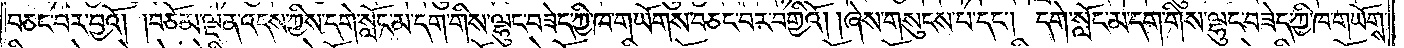བཅང་བར་བྱའོ། །བཅོམ་ལྡན་འདས་ཀྱིས་དགེ་སློང་མ་དག་གིས་ལྷུང་བཟེད་ཀྱི་ཁ་གཡོགས་བཅང་བར་བགྱིའོ། །ཞེས་གསུངས་པ་དང༌། དགེ་སློང་མ་དག་གིས་ལྷུང་བཟེད་ཀྱི་ཁ་གཡོགས་
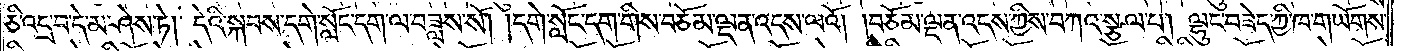ཅི་འདྲ་བ་དེ་མ་ཤེས་ཏེ། དེའི་སྐབས་དགེ་སློང་དག་ལ་བཟླས་སོ། །དགེ་སློང་དག་གིས་བཅོམ་ལྡན་འདས་ལའོ། །བཅོམ་ལྡན་འདས་ཀྱིས་བཀའ་སྩལ་པ། ལྷུང་བཟེད་ཀྱི་ཁ་གཡོགས་
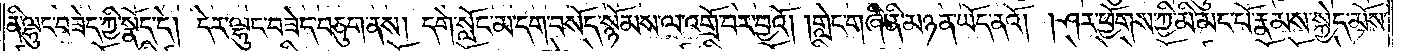ནི་ལྷུང་བཟེད་ཀྱི་སྣོད་དེ། དེར་ལྷུང་བཟེད་བཅུག་ནས། དགེ་སློང་མ་དག་བསོད་སྙོམས་ལ་འགྲོ་བར་བྱའོ། །གླེང་གཞི་ནི་མཉན་ཡོད་ནའོ། །ཤར་ཕྱོགས་ཀྱི་མི་མང་པོ་རྣམས་སྐྱེད་མོས་
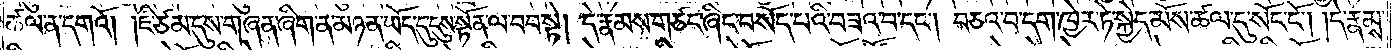ཚལ་ན་དགའོ། །ཇི་ཙམ་དུས་གཞན་ཞིག་ན་མཉན་ཡོད་དུ་དུས་སྟོན་ལ་བབ་སྟེ། དེ་རྣམས་གཙང་ཞིང་བསོད་པའི་བཟའ་བ་དང༌། བཅའ་བ་དག་ཁྱེར་ཏེ་སྐྱེད་མོས་ཚལ་དུ་སོང་ངོ༌། །དེ་རྣམས་
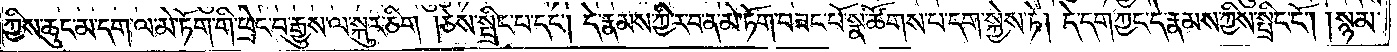ཀྱིས་ཆུང་མ་དག་ལ་མེ་ཏོག་གི་ཕྲེང་བ་རྒྱུས་ལ་སྐུར་ཅིག །ཅེས་སྤྲིང་པ་དང༌། དེ་རྣམས་ཀྱི་ར་བ་ན་མེ་ཏོག་བཟང་པོ་སྣ་ཚོགས་པ་དག་སྐྱེས་ཏེ། དེ་དག་ཀྱང་དེ་རྣམས་ཀྱིས་སྤྲིང་ངོ༌། །སྙམ་
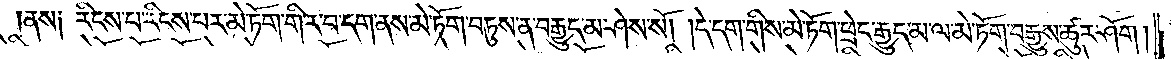ནས། རིངས་པ་རིངས་པར་མེ་ཏོག་གི་ར་བ་དག་ནས་མེ་ཏོག་བཏུས་ན་བརྒྱུད་མ་ཤེས་སོ། །དེ་དག་གིས་མེ་ཏོག་ཕྲེང་རྒྱུད་མ་ལ་མེ་ཏོག་བརྒྱུས་ཚུར་ཤོག །
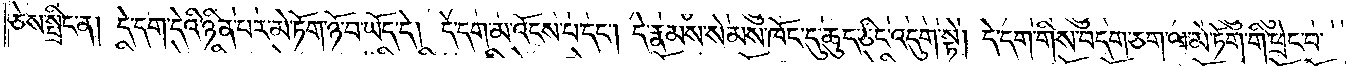ཅེས་སྤྲིང་ན། དེ་དག་དེའི་ཉིན་པར་མེ་ཏོག་ཉོ་བ་ཡོད་དེ། དེ་དག་མ་འོངས་པ་དང༌། དེ་རྣམས་སེམས་ཁོང་དུ་ཆུད་ཅིང་འདུག་སྟེ། དེ་དག་གིས་བདག་ཅག་ལ་མེ་ཏོག་གི་ཕྲེང་བ་
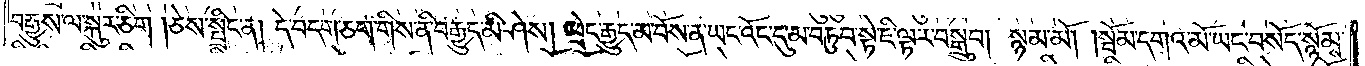བརྒྱུས་ལ་སྐུར་ཅིག །ཅེས་སྤྲིང་ན། དེ་བདག་ཅག་གིས་ནི་བརྒྱུད་མི་ཤེས། ཕྲེང་རྒྱུད་མ་བོས་ན་ཡང་འོང་དུ་མ་བཏུབ་སྟེ་ཇི་ལྟར་བསྒྲུབ། སྙམ་མོ། །སྦོམ་དགའ་མོ་ཡང་བསོད་སྙོམས་
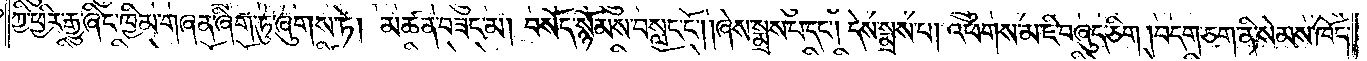ཀྱི་ཕྱིར་རྒྱུ་ཞིང་ཁྱིམ་གཞན་ཞིག་ཏུ་ཞུགས་ཏེ། མཚན་བཟང་མ། བསོད་སྙོམས་བསླང་ངོ༌། །ཞེས་སྨྲས་པ་དང༌། དེས་སྨྲས་པ། འཕགས་མ་ཇི་བཞུད་ཅིག །བདག་ཅག་ནི་སེམས་ཁོང་
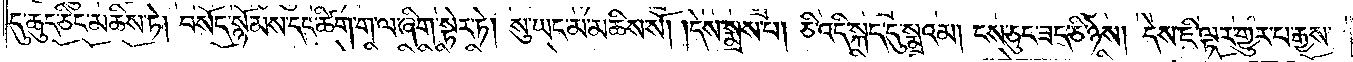དུ་ཆུད་ཅིང་མཆིས་ཏེ། བསོད་སྙོམས་དང་ཚིག་ག་ལ་ཞིག་སྟེར་ཏེ། སུ་ཡང་མ་མཆིས་སོ། །དེས་སྨྲས་པ། ཅི་འདི་སྐད་དུ་སྨྲའམ། ངས་ཅུང་ཟད་ཅི་ཉེས། དེས་ཇི་ལྟར་གྱུར་པ་རྒྱས་
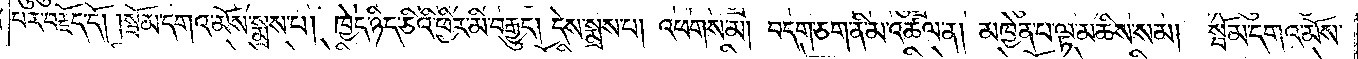པར་བརྗོད་དོ། །སྦོམ་དགའ་མོས་སྨྲས་པ། ཁྱེད་ཉིད་ཅིའི་ཕྱིར་མི་བརྒྱུད། དེས་སྨྲས་པ། འཕགས་མ། བདག་ཅག་ནི་མ་འཚལ་ན། མཁྱེན་པ་ལྟ་མཆིས་སམ། སྦོམ་དགའ་མོས་
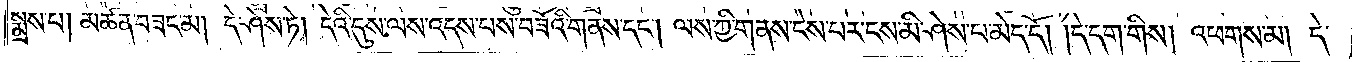སྨྲས་པ། མཚན་བཟང་མ། དེ་ཤེས་ཏེ། དེའི་དུས་ལས་འདས་པས་བཟོའི་གནས་དང༌། ལས་ཀྱི་གནས་ངེས་པར་ངས་མི་ཤེས་པ་མེད་དོ། །དེ་དག་གིས། འཕགས་མ། དེ་
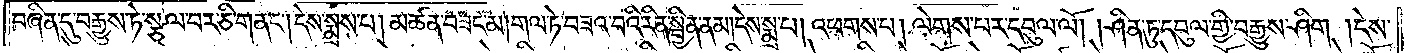བཞིན་དུ་བརྒྱུས་ཏེ་སྩལ་བར་ཅི་གནང༌། དེས་སྨྲས་པ། མཚན་བཟང་མ། གལ་ཏེ་བཟའ་བའི་རིན་སྦྱིན་ནམ། དེས་སྨྲ་པ། འཕགས་པ། ལེགས་པར་དབུལ་ལོ། །ཤིན་ཏུ་དབུལ་གྱི་བརྒྱུས་ཤིག །དེས་
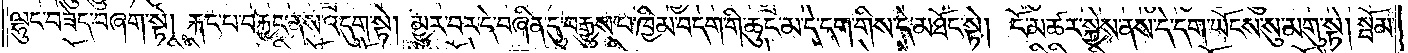ལྷུང་བཟེད་བཞག་སྟེ། རྐང་པ་བརྐྱང་ནས་འདུག་སྟེ། མྱུར་བར་དེ་བཞིན་དུ་བརྒྱུས་པ་ཁྱིམ་བདག་གི་ཆུང་མ་དེ་དག་གིས་དེ་མཐོང་སྟེ། ངོ་མཚར་སྐྱེས་ནས་དེ་དག་ཡོངས་སུ་མགུ་སྟེ། སྦོམ་
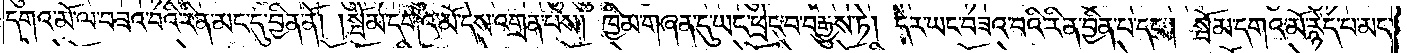དགའ་མོ་ལ་བཟའ་བའི་རིན་མང་དུ་བྱིན་ནོ། །སྦོམ་དགའ་མོ་དེས་འགྲན་པས། ཁྱིམ་གཞན་དུ་ཡང་ཕྲེང་བ་བརྒྱུས་ཏེ། དེར་ཡང་བཟའ་བའི་རིན་བྱིན་པ་དང༌། སྦོམ་དགའ་མོ་རྙེད་པ་མང་
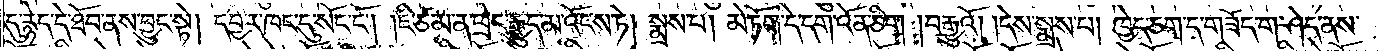དུ་རྙེད་དེ་ཐོབ་ནས་བྱུང་སྟེ། དབྱར་ཁང་དུ་སོང་ངོ༌། །ཇི་ཙམ་ན་ཕྲེང་རྒྱུད་མ་འོངས་ཏེ། སྨྲས་པ། མེ་ཏོག་དེ་དག་འོན་ཅིག །བརྒྱུའོ། །དེས་སྨྲས་པ། ཁྱེད་ཅག་ད་གཟོད་ག་ཤེད་ནས་
